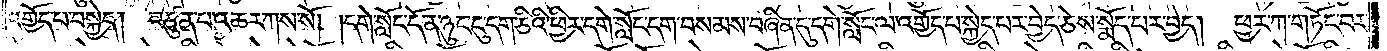འགྱོད་པ་བསྐྱེད། བཙུན་པ་འཆར་ཀས་སོ། །དགེ་སློང་དོན་ཉུང་ངུ་དག་ཅིའི་ཕྱིར་དགེ་སློང་དག་བསམས་བཞིན་དུ་དགེ་སློང་ལ་འགྱོད་པ་སྐྱེད་པར་བྱེད་ཅེས་སྨོད་པར་བྱེད། ཕྱར་ཀ་གཏོང་བར་
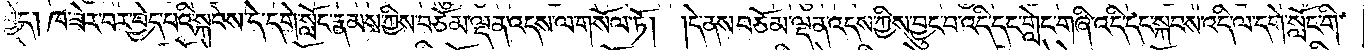བྱེད། ཁ་ཟེར་བར་བྱེད་པའི་སྐབས་དེ་དགེ་སློང་རྣམས་ཀྱིས་བཅོམ་ལྡན་འདས་ལ་གསོལ་ཏོ། །དེ་ནས་བཅོམ་ལྡན་འདས་ཀྱིས་བྱུང་བ་འདི་དང་གླེང་གཞི་འདི་དང་སྐབས་འདི་ལ་དགེ་སློང་གི་
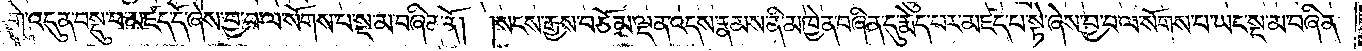དགེ་འདུན་བསྡུ་བ་མཛད་དོ་ཞེས་བྱ་བ་ལ་སོགས་པ་སྔ་མ་བཞིན་ནོ། །སངས་རྒྱས་བཅོམ་ལྡན་འདས་རྣམས་ནི་མཁྱེན་བཞིན་དུ་རྨེད་པར་མཛད་པ་སྟེ་ཞེས་བྱ་བ་ལ་སོགས་པ་ཡང་སྔ་མ་བཞིན་
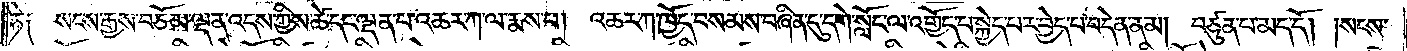ཏེ༑ སངས་རྒྱས་བཅོམ་ལྡན་འདས་ཀྱིས་ཚེ་དང་ལྡན་པ་འཆར་ཀ་ལ་རྨས་པ། འཆར་ཀ་ཁྱོད་བསམས་བཞིན་དུ་དགེ་སློང་ལ་འགྱོད་པ་སྐྱེད་པར་བྱེད་པ་བདེན་ནམ། བཙུན་པ་མད་དོ། །སངས་
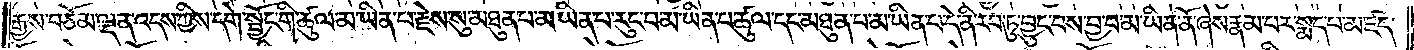རྒྱས་བཅོམ་ལྡན་འདས་ཀྱིས་དགེ་སྦྱོང་གི་ཚུལ་མ་ཡིན་པ་རྗེས་སུ་མཐུན་པ་མ་ཡིན་པ་རུང་བ་མ་ཡིན་པ་ཚུལ་དང་མཐུན་པ་མ་ཡིན་པ་དེ་ནི་རབ་ཏུ་བྱུང་བས་བྱ་བ་མ་ཡིན་ནོ་ཞེས་རྣམ་པར་སྨད་པ་མཛད་
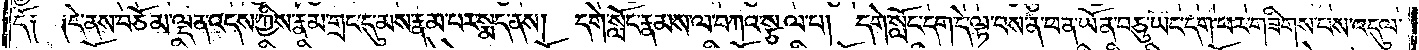དོ༑ ༑དེ་ནས་བཅོམ་ལྡན་འདས་ཀྱིས་རྣམ་གྲང་དུ་མས་རྣམ་པར་སྨད་ནས། དགེ་སློང་རྣམས་ལ་བཀའ་སྩལ་པ། དགེ་སློང་དག་དེ་ལྟ་བས་ན་ཕན་ཡོན་བཅུ་ཡང་དག་པར་གཟིགས་པས་འདུལ་
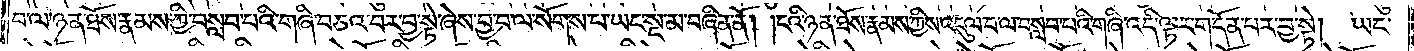བ་ལ་ཉན་ཐོས་རྣམས་ཀྱི་བསླབ་པའི་གཞི་བཅའ་བར་བྱ་སྟེ་ཞེས་བྱ་བ་ལ་སོགས་པ་ཡང་སྔ་མ་བཞིན་ནོ། །ངའི་ཉན་ཐོས་རྣམས་ཀྱིས་འདུལ་བ་ལ་བསླབ་པའི་གཞི་འདི་ལྟར་གདོན་པར་བྱ་སྟེ། ཡང་
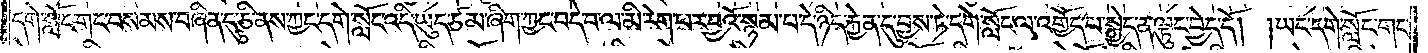དགེ་སློང་གང་བསམས་བཞིན་དུ་ཅི་ནས་ཀྱང་དགེ་སློང་འདི་ཡུད་ཙམ་ཞིག་ཀྱང་བདེ་བ་ལ་མི་རེག་པར་བྱའོ་སྙམ་པ་དེ་ཉིད་རྐྱེན་དུ་བྱས་ཏེ་དགེ་སློང་ལ་འགྱོད་པ་སྐྱེད་ན་ལྟུང་བྱེད་དོ། །ཡང་དགེ་སློང་གང་
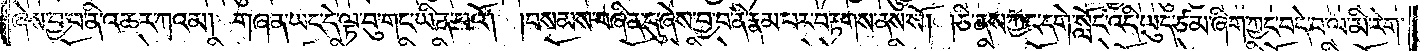ཞེས་བྱ་བ་ནི་འཆར་ཀའམ། གཞན་ཡང་དེ་ལྟ་བུ་གང་ཡིན་པའོ། །བསམས་བཞིན་དུ་ཞེས་བྱ་བ་ནི་རྣམ་པར་བརྟགས་ནས་སོ། །ཅི་ནས་ཀྱང་དགེ་སློང་འདི་ཡུད་ཙམ་ཞིག་ཀྱང་བདེ་བ་ལ་མི་རེག་
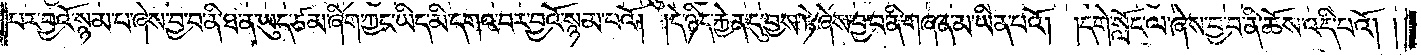པར་བྱའོ་སྙམ་པ་ཞེས་བྱ་བ་ནི་ཐ་ན་ཡུད་ཙམ་ཞིག་ཀྱང་ཡིད་མི་དགའ་བར་བྱའོ་སྙམ་པའོ། །དེ་ཉིད་རྐྱེན་དུ་བྱས་ཏེ་ཞེས་བྱ་བ་ནི་གཞན་མ་ཡིན་པའོ། །དགེ་སློང་ལ་ཞེས་བྱ་བ་ནི་ཆོས་འདི་པའོ། །
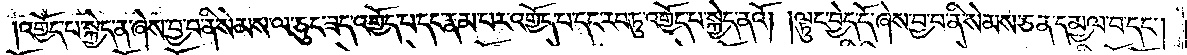འགྱོད་པ་སྐྱེད་ན་ཞེས་བྱ་བ་ནི་སེམས་ལ་ཅུང་ཟད་འགྱོད་པ་དང་རྣམ་པར་འགྱོད་པ་དང་རབ་ཏུ་འགྱོད་པ་སྐྱེད་ནའོ། །ལྟུང་བྱེད་དོ་ཞེས་བྱ་བ་ནི་སེམས་ཅན་དམྱལ་བ་དང༌།
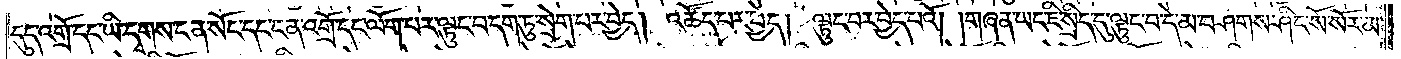དུད་འགྲོ་དང་ཡི་དྭགས་ངན་སོང་དང་ངན་འགྲོ་དང་ལོག་པར་ལྟུང་བ་དག་ཏུ་སྲེག་པར་བྱེད། འཚོད་པར་བྱེད། ལྟུང་བར་བྱེད་པའོ། །གཞན་ཡང་ཇི་སྲིད་དུ་ལྟུང་བ་དེ་མ་བཤགས་ཤིང་སོ་སོར་མ་
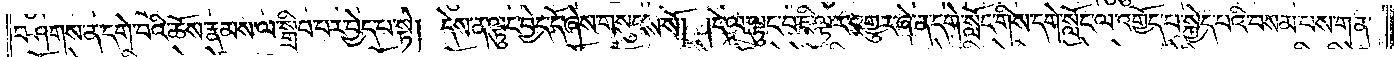བཤགས་ན་དགེ་བའི་ཆོས་རྣམས་ལ་སྒྲིབ་པར་བྱེད་པ་སྟེ། དེས་ན་ལྟུང་བྱེད་དོ་ཞེས་གསུངས་སོ། །དེ་ལ་ལྟུང་བ་ཇི་ལྟར་འགྱུར་ཞེ་ན་དགེ་སློང་གིས་དགེ་སློང་ལ་འགྱོད་པ་སྐྱེད་པའི་བསམ་པས་གན་
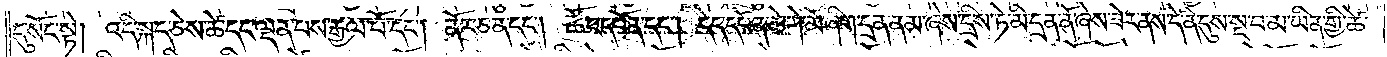དུ་སོང་སྟེ། འདི་སྐད་ཅེས་ཚེ་དང་ལྡན་པས་རྒྱལ་པོ་དང༌། ནོར་ཅན་དང༌། ཚོང་དཔོན་དང༌། དེད་དཔོན་ཆེ་གེ་མོ་ཞིག་དྲན་ནམ་ཞེས་དྲིས་ཏེ་མི་དྲན་ནོ་ཞེས་ཟེར་ནས་དེ་ནི་དུས་སྔ་བ་མ་ཡིན་གྱི་ཚེ་
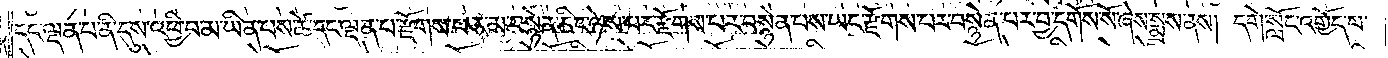དང་ལྡན་པ་ནི་དུས་འཕྱི་བ་མ་ཡིན་པས་ཚེ་དང་ལྡན་པ་རྫོགས་པར་མ་བསྙེན་ཅིང་ཉེས་པར་རྫོགས་པར་བསྙེན་པས་ཡང་རྫོགས་པར་བསྙེན་པར་བྱ་དགོས་སོ་ཞེས་སྨྲས་ནས། དགེ་སློང་འགྱོད་པ་
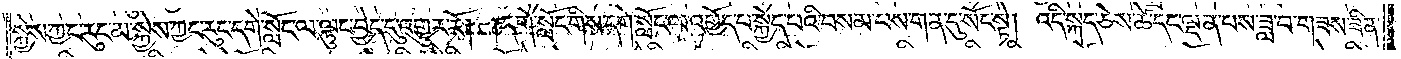སྐྱེས་ཀྱང་རུང་མ་སྐྱེས་ཀྱང་རུང་དགེ་སློང་ལ་ལྟུང་བྱེད་དུ་འགྱུར་རོ། །དགེ་སློང་གིས་དགེ་སློང་ལ་འགྱོད་པ་སྐྱེད་པའི་བསམ་པས་གན་དུ་སོང་སྟེ། འདི་སྐད་ཅེས་ཚེ་དང་ལྡན་པས་ཟླ་བ་གཟས་ཟིན་
